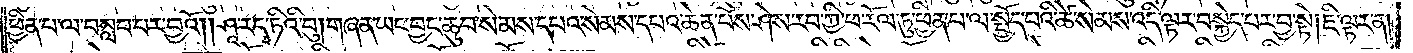ཕྱིན་པ་ལ་བསླབ་པར་བྱའོ། །ཤཱ་ར་དྭ་ཏིའི་བུ། གཞན་ཡང་བྱང་ཆུབ་སེམས་དཔའ་སེམས་དཔའ་ཆེན་པོས་ཤེས་རབ་ཀྱི་ཕ་རོལ་ཏུ་ཕྱིན་པ་ལ་སྤྱོད་པའི་ཚེ་སེམས་འདི་ལྟར་བསྐྱེད་པར་བྱ་སྟེ། ཇི་ལྟར་ན།
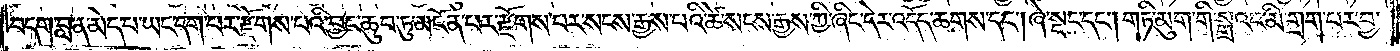བདག་བླ་ན་མེད་པ་ཡང་དག་པར་རྫོགས་པའི་བྱང་ཆུབ་ཏུ་མངོན་པར་རྫོགས་པར་སངས་རྒྱས་པའི་ཚེ་སངས་རྒྱས་ཀྱི་ཞིང་དེར་འདོད་ཆགས་དང༌། ཞེ་སྡང་དང༌། གཏི་མུག་གི་སྒྲའང་མི་གྲག་པར་བྱ་
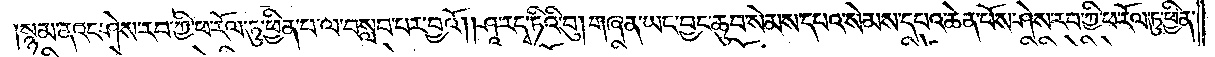སྙམ་ནའང་ཤེས་རབ་ཀྱི་ཕ་རོལ་ཏུ་ཕྱིན་པ་ལ་བསླབ་པར་བྱའོ། །ཤཱ་ར་དྭ་ཏིའི་བུ། གཞན་ཡང་བྱང་ཆུབ་སེམས་དཔའ་སེམས་དཔའ་ཆེན་པོས་ཤེས་རབ་ཀྱི་ཕ་རོལ་ཏུ་ཕྱིན་
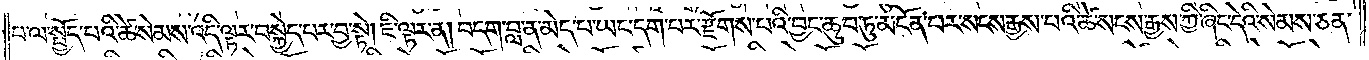པ་ལ་སྤྱོད་པའི་ཚེ་སེམས་འདི་ལྟར་བསྐྱེད་པར་བྱ་སྟེ། ཇི་ལྟར་ན། བདག་བླ་ན་མེད་པ་ཡང་དག་པར་རྫོགས་པའི་བྱང་ཆུབ་ཏུ་མངོན་པར་སངས་རྒྱས་པའི་ཚེ་སངས་རྒྱས་ཀྱི་ཞིང་དེའི་སེམས་ཅན་
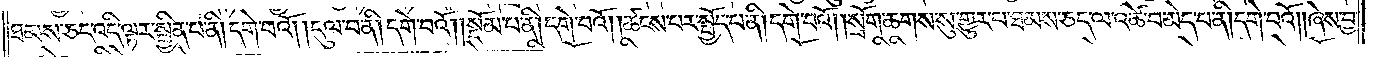ཐམས་ཅད་འདི་ལྟར་སྦྱིན་པ་ནི། དགེ་བའོ། །དུལ་བ་ནི། དགེ་བའོ། །སྡོམ་པ་ནི། དགེ་བའོ། །ཚངས་པར་སྤྱོད་པ་ནི། དགེ་བའོ། །སྲོག་ཆགས་སུ་གྱུར་པ་ཐམས་ཅད་ལ་འཚེ་བ་མེད་པ་ནི། དགེ་བའོ། །ཞེས་བྱ་
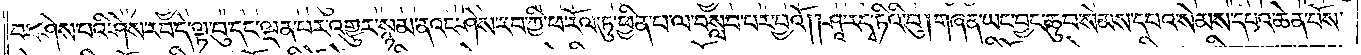བར་ཤེས་པའི་ཤེས་རབ་དེ་ལྟ་བུ་དང་ལྡན་པར་འགྱུར་སྙམ་ནའང་ཤེས་རབ་ཀྱི་ཕ་རོལ་ཏུ་ཕྱིན་པ་ལ་བསླབ་པར་བྱའོ། །ཤཱ་ར་དྭ་ཏིའི་བུ། གཞན་ཡང་བྱང་ཆུབ་སེམས་དཔའ་སེམས་དཔའ་ཆེན་པོས་
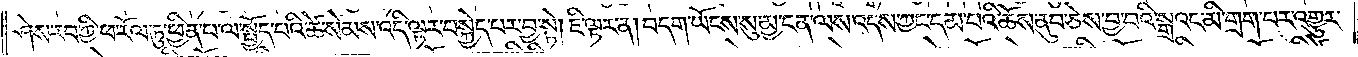ཤེས་རབ་ཀྱི་ཕ་རོལ་ཏུ་ཕྱིན་པ་ལ་སྤྱོད་པའི་ཚེ་སེམས་འདི་ལྟར་བསྐྱེད་པར་བྱ་སྟེ། ཇི་ལྟར་ན། བདག་ཡོངས་སུ་མྱ་ངན་ལས་འདས་ཀྱང་དམ་པའི་ཆོས་ནུབ་ཅེས་བྱ་བའི་སྒྲའང་མི་གྲག་པར་འགྱུར་
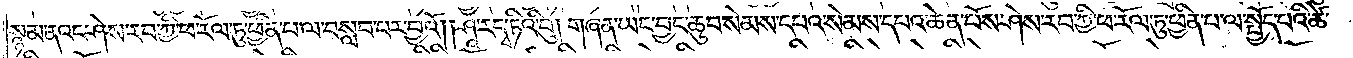སྙམ་ནའང་ཤེས་རབ་ཀྱི་ཕ་རོལ་ཏུ་ཕྱིན་པ་ལ་བསླབ་པར་བྱའོ། །ཤཱ་ར་དྭ་ཏིའི་བུ། གཞན་ཡང་བྱང་ཆུབ་སེམས་དཔའ་སེམས་དཔའ་ཆེན་པོས་ཤེས་རབ་ཀྱི་ཕ་རོལ་ཏུ་ཕྱིན་པ་ལ་སྤྱོད་པའི་ཚེ་
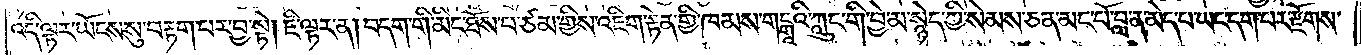འདི་ལྟར་ཡོངས་སུ་བརྟག་པར་བྱ་སྟེ། ཇི་ལྟར་ན། བདག་གི་མིང་ཐོས་པ་ཙམ་གྱིས་འཇིག་རྟེན་གྱི་ཁམས་གངྒཱའི་ཀླུང་གི་བྱེ་མ་སྙེད་ཀྱི་སེམས་ཅན་མང་པོ་བླ་ན་མེད་པ་ཡང་དག་པར་རྫོགས་
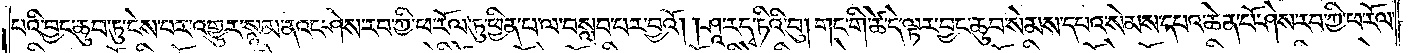པའི་བྱང་ཆུབ་ཏུ་ངེས་པར་འགྱུར་སྙམ་ནའང་ཤེས་རབ་ཀྱི་ཕ་རོལ་ཏུ་ཕྱིན་པ་ལ་བསླབ་པར་བྱའོ། །ཤཱ་ར་དྭ་ཏིའི་བུ། གང་གི་ཚེ་དེ་ལྟར་བྱང་ཆུབ་སེམས་དཔའ་སེམས་དཔའ་ཆེན་པོ་ཤེས་རབ་ཀྱི་ཕ་རོལ་
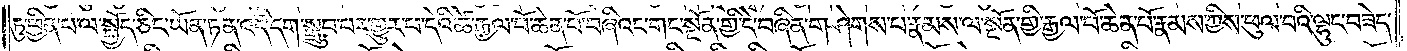ཏུ་ཕྱིན་པ་ལ་སྤྱོད་ཅིང་ཡོན་ཏན་འདི་དག་སྒྲུབ་པར་གྱུར་པ་དེའི་ཚེ་རྒྱལ་པོ་ཆེན་པོ་བཞིའང་གང་སྔོན་གྱི་དེ་བཞིན་གཤེགས་པ་རྣམས་ལ་སྔོན་གྱི་རྒྱལ་པོ་ཆེན་པོ་རྣམས་ཀྱིས་ཕུལ་བའི་ལྷུང་བཟེད་
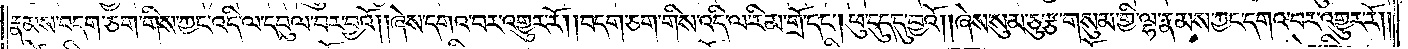རྣམས་བདག་ཅག་གིས་ཀྱང་འདི་ལ་དབུལ་བར་བྱའོ། །ཞེས་དགའ་བར་འགྱུར་རོ། །བདག་ཅག་གིས་འདི་ལ་རིམ་གྲོ་དང༌། ཕུ་དུད་དུ་བྱའོ། །ཞེས་སུམ་ཅུ་རྩ་གསུམ་གྱི་ལྷ་རྣམས་ཀྱང་དགའ་བར་འགྱུར་རོ༎
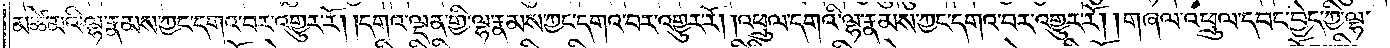མཚེ་མའི་ལྷ་རྣམས་ཀྱང་དགའ་བར་འགྱུར་རོ། །དགའ་ལྡན་གྱི་ལྷ་རྣམས་ཀྱང་དགའ་བར་འགྱུར་རོ། །འཕྲུལ་དགའི་ལྷ་རྣམས་ཀྱང་དགའ་བར་འགྱུར་རོ། །གཞལ་འཕྲུལ་དབང་བྱེད་ཀྱི་ལྷ་
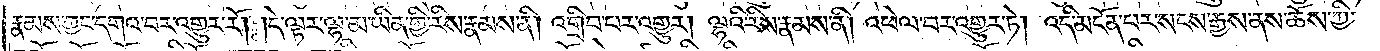རྣམས་ཀྱང་དགའ་བར་འགྱུར་རོ། །དེ་ལྟར་ལྷ་མ་ཡིན་གྱི་རིས་རྣམས་ནི། འགྲིབ་པར་འགྱུར། ལྷའི་རིས་རྣམས་ནི། འཕེལ་བར་འགྱུར་ཏེ། འདི་མངོན་པར་སངས་རྒྱས་ནས་ཆོས་ཀྱི་
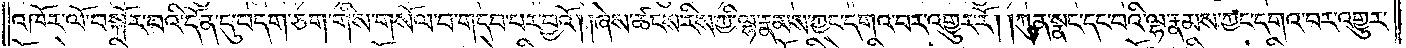འཁོར་ལོ་བསྐོར་བའི་དོན་དུ་བདག་ཅག་གིས་གསོལ་བ་གདབ་པར་བྱའོ། །ཞེས་ཚངས་རིས་ཀྱི་ལྷ་རྣམས་ཀྱང་དགའ་བར་འགྱུར་རོ། །ཀུན་སྣང་དང་བའི་ལྷ་རྣམས་ཀྱང་དགའ་བར་འགྱུར་
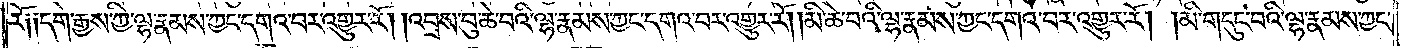རོ༑༑དགེ་རྒྱས་ཀྱི་ལྷ་རྣམས་ཀྱང་དགའ་བར་འགྱུར་རོ། །འབྲས་བུ་ཆེ་བའི་ལྷ་རྣམས་ཀྱང་དགའ་བར་འགྱུར་རོ། །མི་ཆེ་བའི་ལྷ་རྣམས་ཀྱང་དགའ་བར་འགྱུར་རོ། །མི་གདུང་བའི་ལྷ་རྣམས་ཀྱང་
